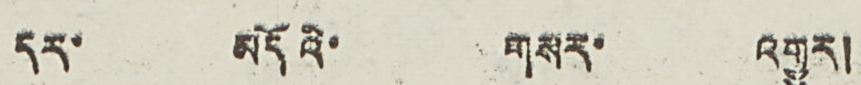དར་ མདོའི་ གསར་ འགྱུར།
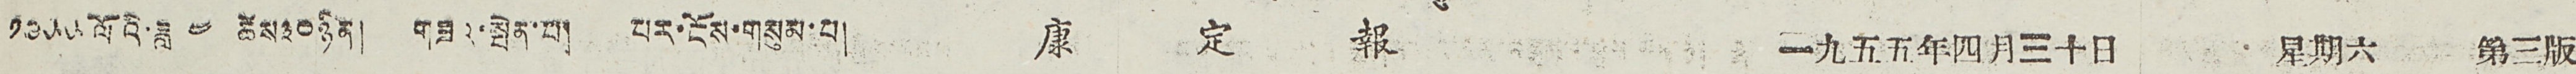༡༩༥༥ ལོའི་ཟླ ༤ ཚེས༣༠ཉིན། གཟའ་སྤེན་པ། པར་ངོས་གསུམ་པ། 康 定 報 一九五五年四月三十日 星期六 第三版
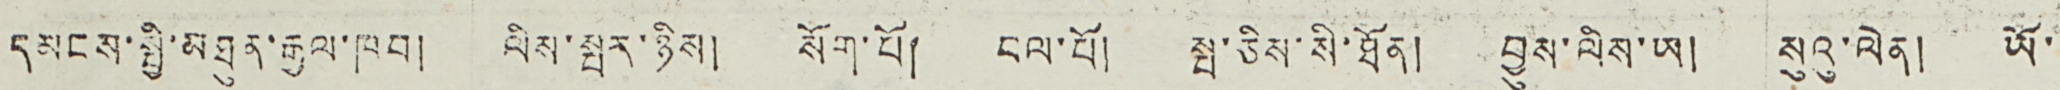དམངས་སྤྱི་མཐུན་རྒྱལ་ཁབ། ལིས་སྤར་ཉིས། སོག་པོ། བལ་པོ། སྤ་ཅིས་སི་ཐོན། བྱུས་ལིས་ཡ། སུའུ་ལེན། ཡོ་
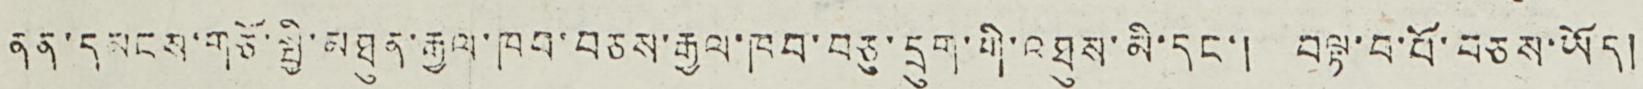ནན་དམངས་གཙོ་སྤྱི་མཐུན་རྒྱལ་ཁབ་བཅས་རྒྱལ་ཁབ་བཅུ་དྲུག་གི་འཐུས་མི་དང་། བལྟ་བ་པོ་བཅས་ཡོད།
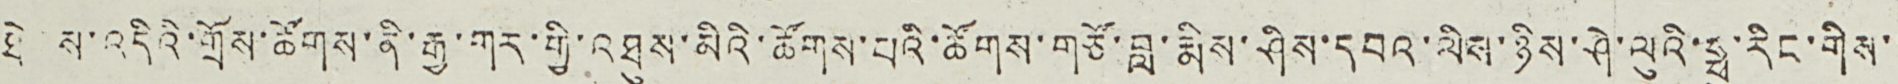ཐེངས་འདིའི་གྲོས་ཚོགས་ནི་རྒྱ་གར་གྱི་འཐུས་མིའི་ཚོགས་པའི་ཚོགས་གཙོ་བླ་རྨིས་ཤིས་དབའ་ལིས་ཉིས་ཤེ་ལུའི་ཧྥུ་རིང་གིས་་
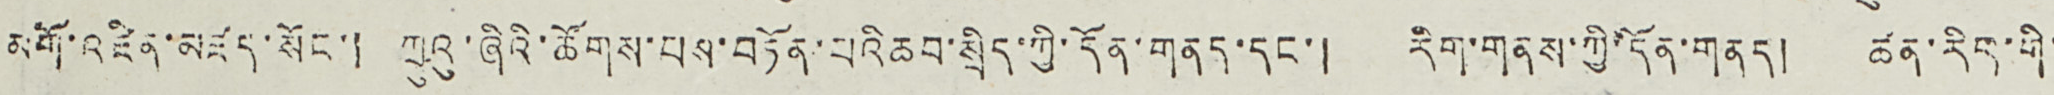མགོ་འཛིན་མཛད་སོང་། ཀྲུའུ་ཞིའི་ཚོགས་པས་བཏོན་པའི ཆབ་སྲིད་ཀྱི་དོན་གནད་དང་། རིག་གནས་ཀྱི་དོན་གནད། ཚན་རིག་གི་
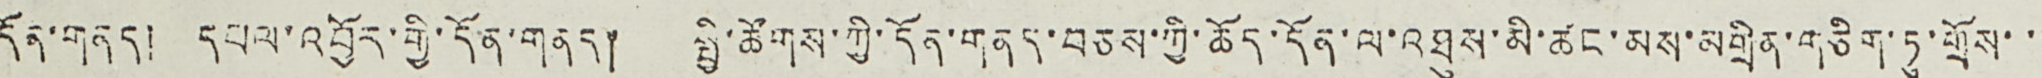དོན་གནད། དཔལ་འབྱོར་གྱི་དོན་གནད། སྤྱི་ཚོགས་ཀྱི་དོན་གནད་བཅས་ཀྱི་ཆོད་དོན་ལ་འཐུས་མི་ཚང་མས་མགྲིན་གཅིག་ཏུ་གྲོས་་་
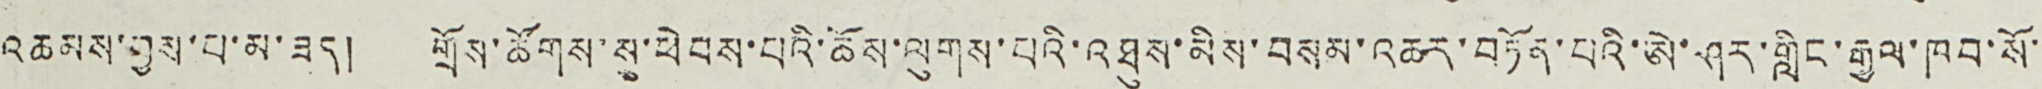འཆམས་བྱས་པ་མ་ཟད། གྲོས་ཚོགས་སུ་ཕེབས་པའི་ཆོས་ལུགས་པའི་འཐུས་མིས་བསམ་འཆར་བཏོན་པའི་ཨེ་ཤར་གླིང་རྒྱལ་ཁབ་སོ་་
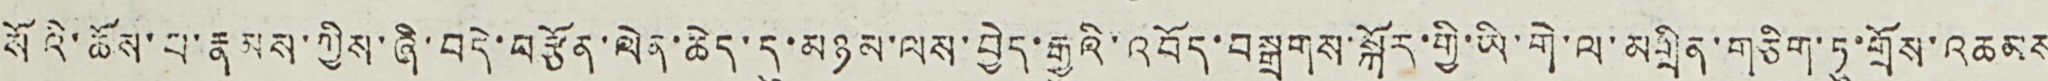སོའི་ཆོས་པ་རྣམས་ཀྱིས་ཞི་བདེ་བརྩོན་ལེན་ཆེད་དུ་མཉམ་ལས་བྱེད་རྒྱུའི་འབོད་བསྒྲགས་སྐོར་གྱི་ཡི་གེ་ལ་མགྲིན་གཅིག་ཏུ་གྲོས་འཆམས
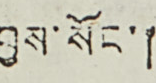བྱས་སོང་།
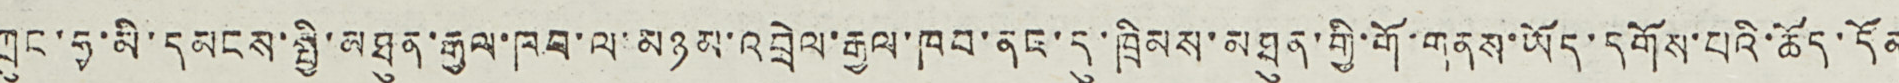ཀྲུང་ཧྭ་མི་དམངས་སྤྱི་མཐུན་རྒྱལ་ཁབ་ལ་མཉམ་འབྲེལ་རྒྱལ་ཁབ་ནང་དུ་ཁྲིམས་མཐུན་གྱི་གོ་གནས་ཡོད་དགོས་པའི་ཆོད་དོན
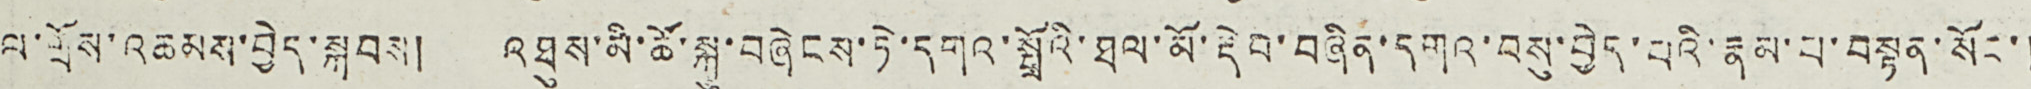ལ་གྲོས་འཆམས་བྱེད་སྐབས། འཐུས་མི་ཚོ་སྐུ་བཞེངས་ཏེ་དགའ་སྤྲོའི་ཐལ་མོ་རྡེབ་བཞིན་དགའ་བསུ་བྱེད་པའི་རྣམ་པ་བསྟན་སོང་།
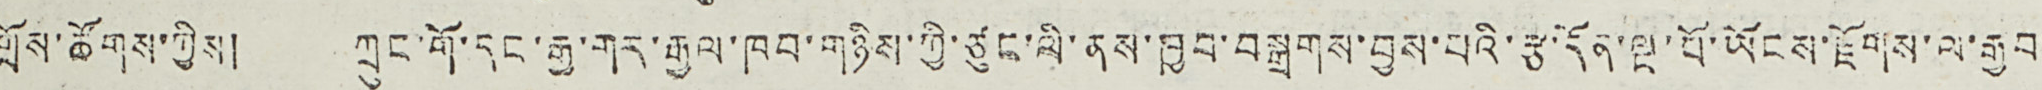གྲོས་ཚོགས་ཀྱིས། ཀྲུང་གོ་དང་རྒྱ་གར་རྒྱལ་ཁབ་གཉིས་ཀྱི་ཙུང་ལི་ནས་ཁྱབ་བསྒྲགས་བྱས་པའི་རྩ་དོན་ལྔ་པོ་ཡོངས་རྫོགས་ལ་རྒྱབ་
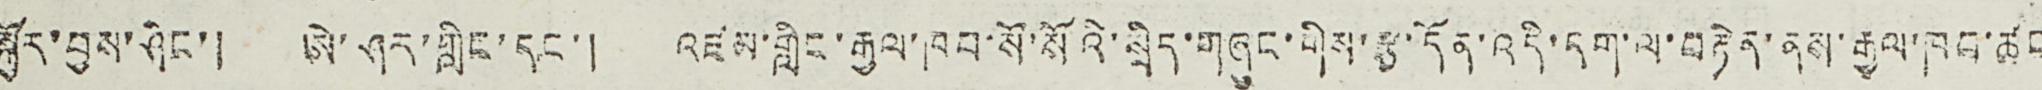སྐྱོར་བྱས་ཤིང་། ཨེ་ཤར་གླིང་དང་། འཛམ་གླིང་རྒྱལ་ཁབ་སོ་སོའི་སྲིད་གཞུང་གིས་རྩ་དོན་འདི་དག་ལ་བརྟེན་ནས་རྒྱལ་ཁབ་ཚང
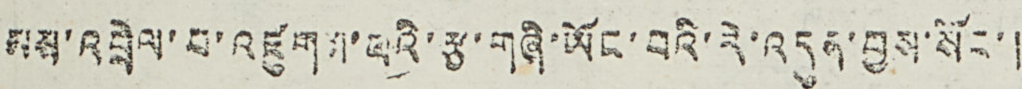མས་འབྲེལ་བ་འཛུགས་པའི་རྩ་གཞི་ཡོང་བའི་རེ་འདུན་བྱས་སོང་།
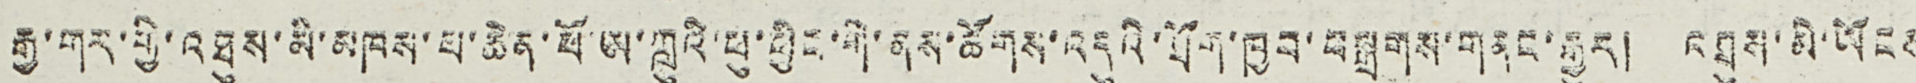རྒྱ་གར་གྱི་འཐུས་མི་མཁས་པ་ཆེན་པོ་ཨ་ཀླུའི་ཕུ་ཕྱིང་གི་ནས་ཚོགས་འདུའི་ཐོག་ཁྱབ་བསྒྲགས་གནང་རྒྱུར། འཐུས་མི་ཡོངས
